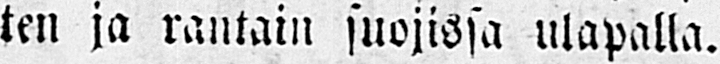ten ja rantain suojissa ulapalla.
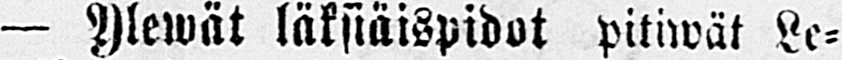— Ylewät läksiaispidot pitiwät Le-
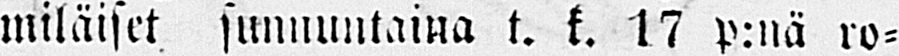miläiset sunnuntaina t. k. 17 p:nä ro-
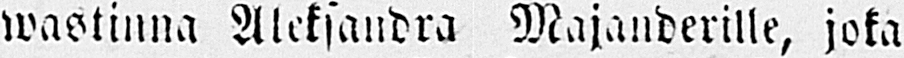wastinna Aleksandra Majanderille, joka
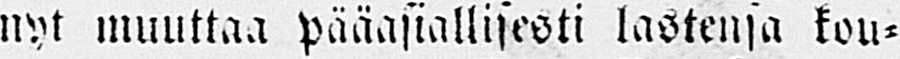nyt muuttaa pääasiallisesti lastensa kou-
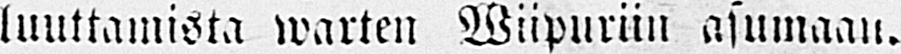luuttamista warten Wiipuriin asumaan.
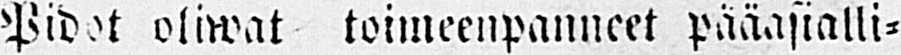Pidot oliwat toimeenpanneet pääasialli-
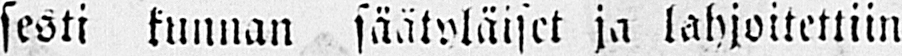sesti kunnan säätyläiset ja lahjoitettiin
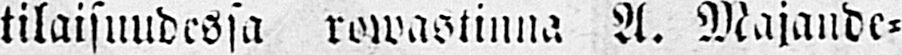tilaisuudessa rowastinna A. Majande-
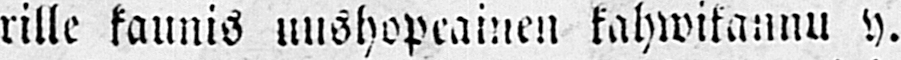rille kaunis uushopeainen kahwikannu y.
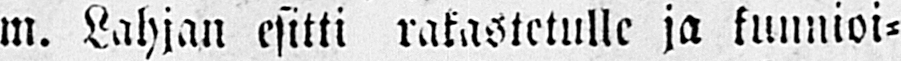m. Lahjan esitti rakastetulle ja kunnioi-
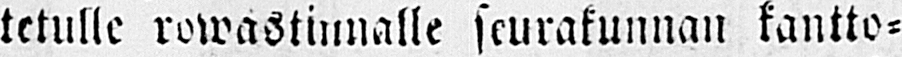tetulle rowastiunalle seurakunnan kantto-
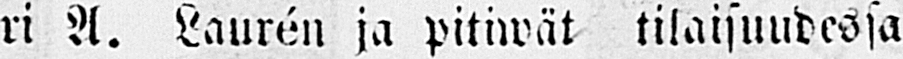ri A. Lauréin ja pitiwät tilaisuudessa
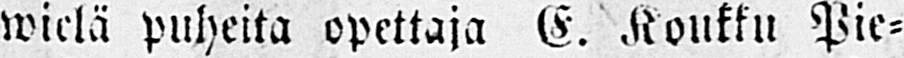wielä puheita opettaja E. Koukku Pie-
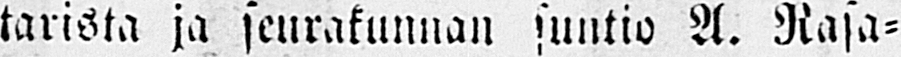tarista ja seurakunnan suntio A. Rasa-
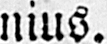nius.
